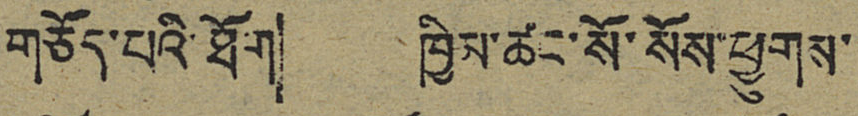གཅོད་པའི་ཐོག ཁྱིམ་ཚང་སོ་སོས་ཕྱུགས་
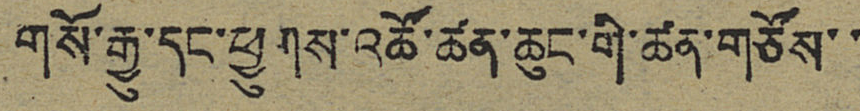གསོ་རྒྱུ་དང་ཕྱུགས་འཚོ་ཚན་ཆུང་གི་ཚན་གཙོས་་
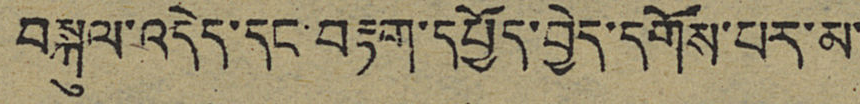བསྐུལ་འདེད་དང་བརྟག་དཔྱོད་བྱེད་དགོས་པར་མ་
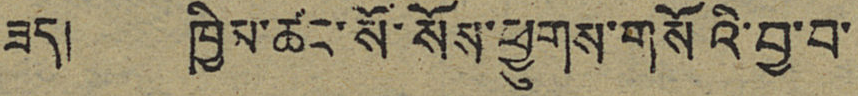ཟད། ཁྱིམ་ཚང་སོ་སོས་ཕྱུགས་གསོའི་བྱ་བ་
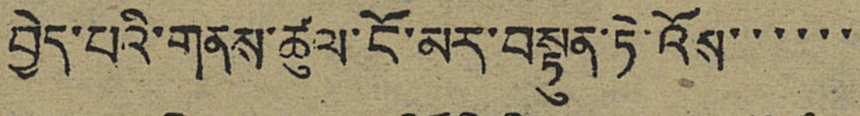བྱེད་པའི་གནས་ཚུལ་ངོ་མར་བསྟུན་ཏེ་འོས་་་་་་
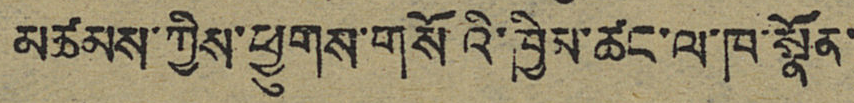མཚམས་ཀྱིས་ཕྱུགས་གསོའི་ཁྱིམ་ཚང་ལ་ཁ་སྣོན་
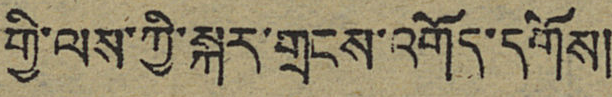གྱི་ལས་ཀྱི་སྐར་གྲངས་འགོད་དགོས།
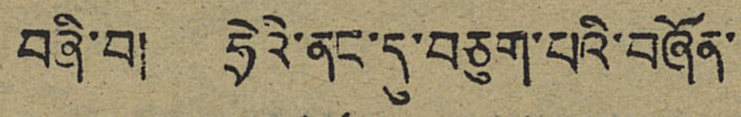བཞི་བ། ཧྲེའི་ནང་དུ་བཅུག་པའི་བཞོན་
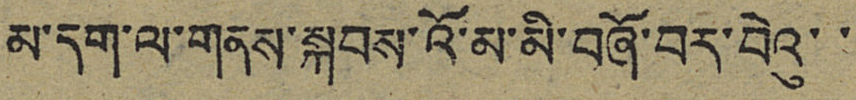མ་དག་ལ་གནས་སྐབས་འོ་མ་མི་བཞོ་བར་བེའུ་་
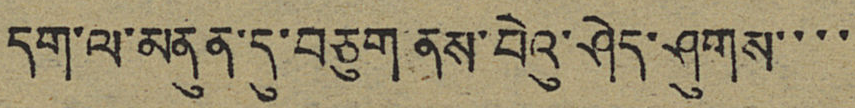དག་ལ་མནུན་དུ་བཅུག ནས་བེའུ་ཤེད་ཤུགས་་་་
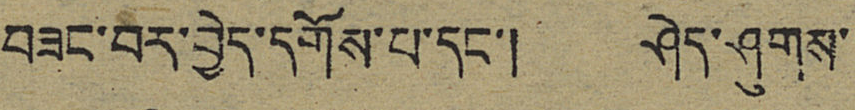བཟང་བར་བྱེད་དགོས་པ་དང་། ཤེད་ཤུགས་
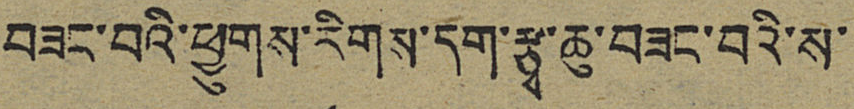བཟང་བའི་ཕྱུགས་རིགས་དག་རྩྭ་ཆུ་བཟང་བའི་ས་
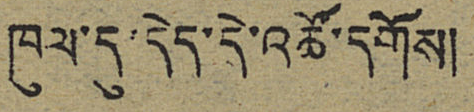ཁུལ་དུ་དེད་དེ་འཚོ་དགོས།
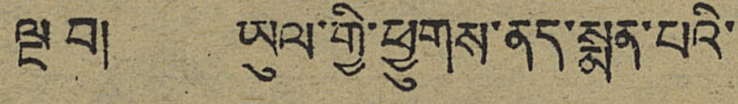ལྔ་བ། ཡུལ་གྱི་ཕྱུགས་ནད་སྨན་པའི་
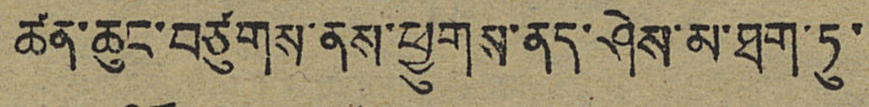ཚན་ཆུང་བཙུགས་ནས་ཕྱུགས་ནད་ཤེས་མ་ཐག་ཏུ་
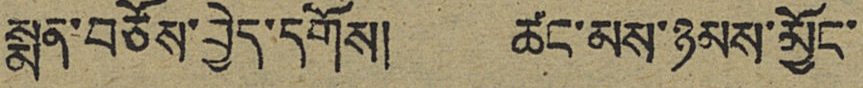སྨན་བཅོས་བྱེད་དགོས། ཚང་མས་ཉམས་མྱོང་
